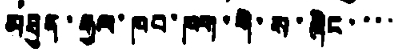མཐུན་རྒྱལ་ཁབ་ཁག་གི་ས་ཞིང་་་་
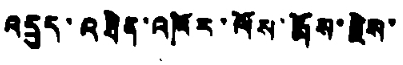འདྲུད་འཐེན་འཁོར་ལོས་རྨོས་རྗེས་
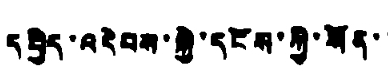དཔྱིད་འདེབས་སྐྱེ་དངོས་ཀྱི་སོན་་
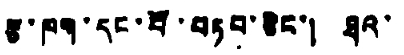རྩ་ཁག་དང་པོ་བཏབ་ཅིང་། ཐའ་
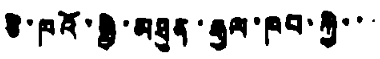ཅི་ཁའོ་སྤྱི་མཐུན་རྒྱལ་ཁབ་ཀྱི་་་
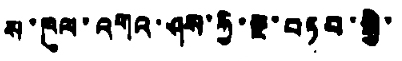ས་ཁུལ་འགའ་ཤས་ཀྱི་སྔ་བཏབ་སྐྱེ་
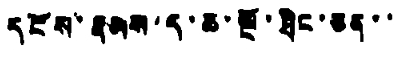དངོས་རྣམས་ད་ཆ་སྔོ་ཐིང་ཅན་་
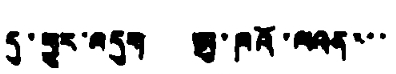དུ་གྱུར་འདུག ཨུ་ཁའོ་ལའན་་་
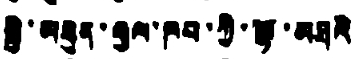སྤྱི་མཐུན་རྒྱལ་ཁབ་ཀྱི་ལྷོ་མཐའི་
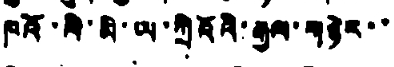ཁའོ་ལི་མི་ཡ་ཀྲེའོའི་རྒྱལ་གཉེར་་
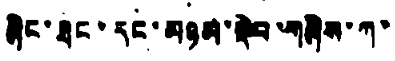ཞིང་ཐང་དང་མཉམ་སྡེབ་གཞིས་ཀ་
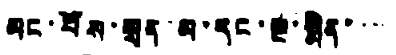མང་པོས་སྲན་མ་དང་སྔ་སྨིན་་་་
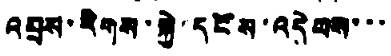འབྲས་རིགས་སྐྱེ་དངོས་འདེབས་་་
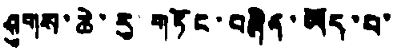ཤུགས་ཆེ་རུ་གཏོང་བཞིན་ཡོད་པ་
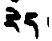རེད།
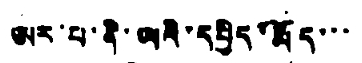ཨར་པ་ནི་ཡའི་དཔྱིད་རྨོད་་་
